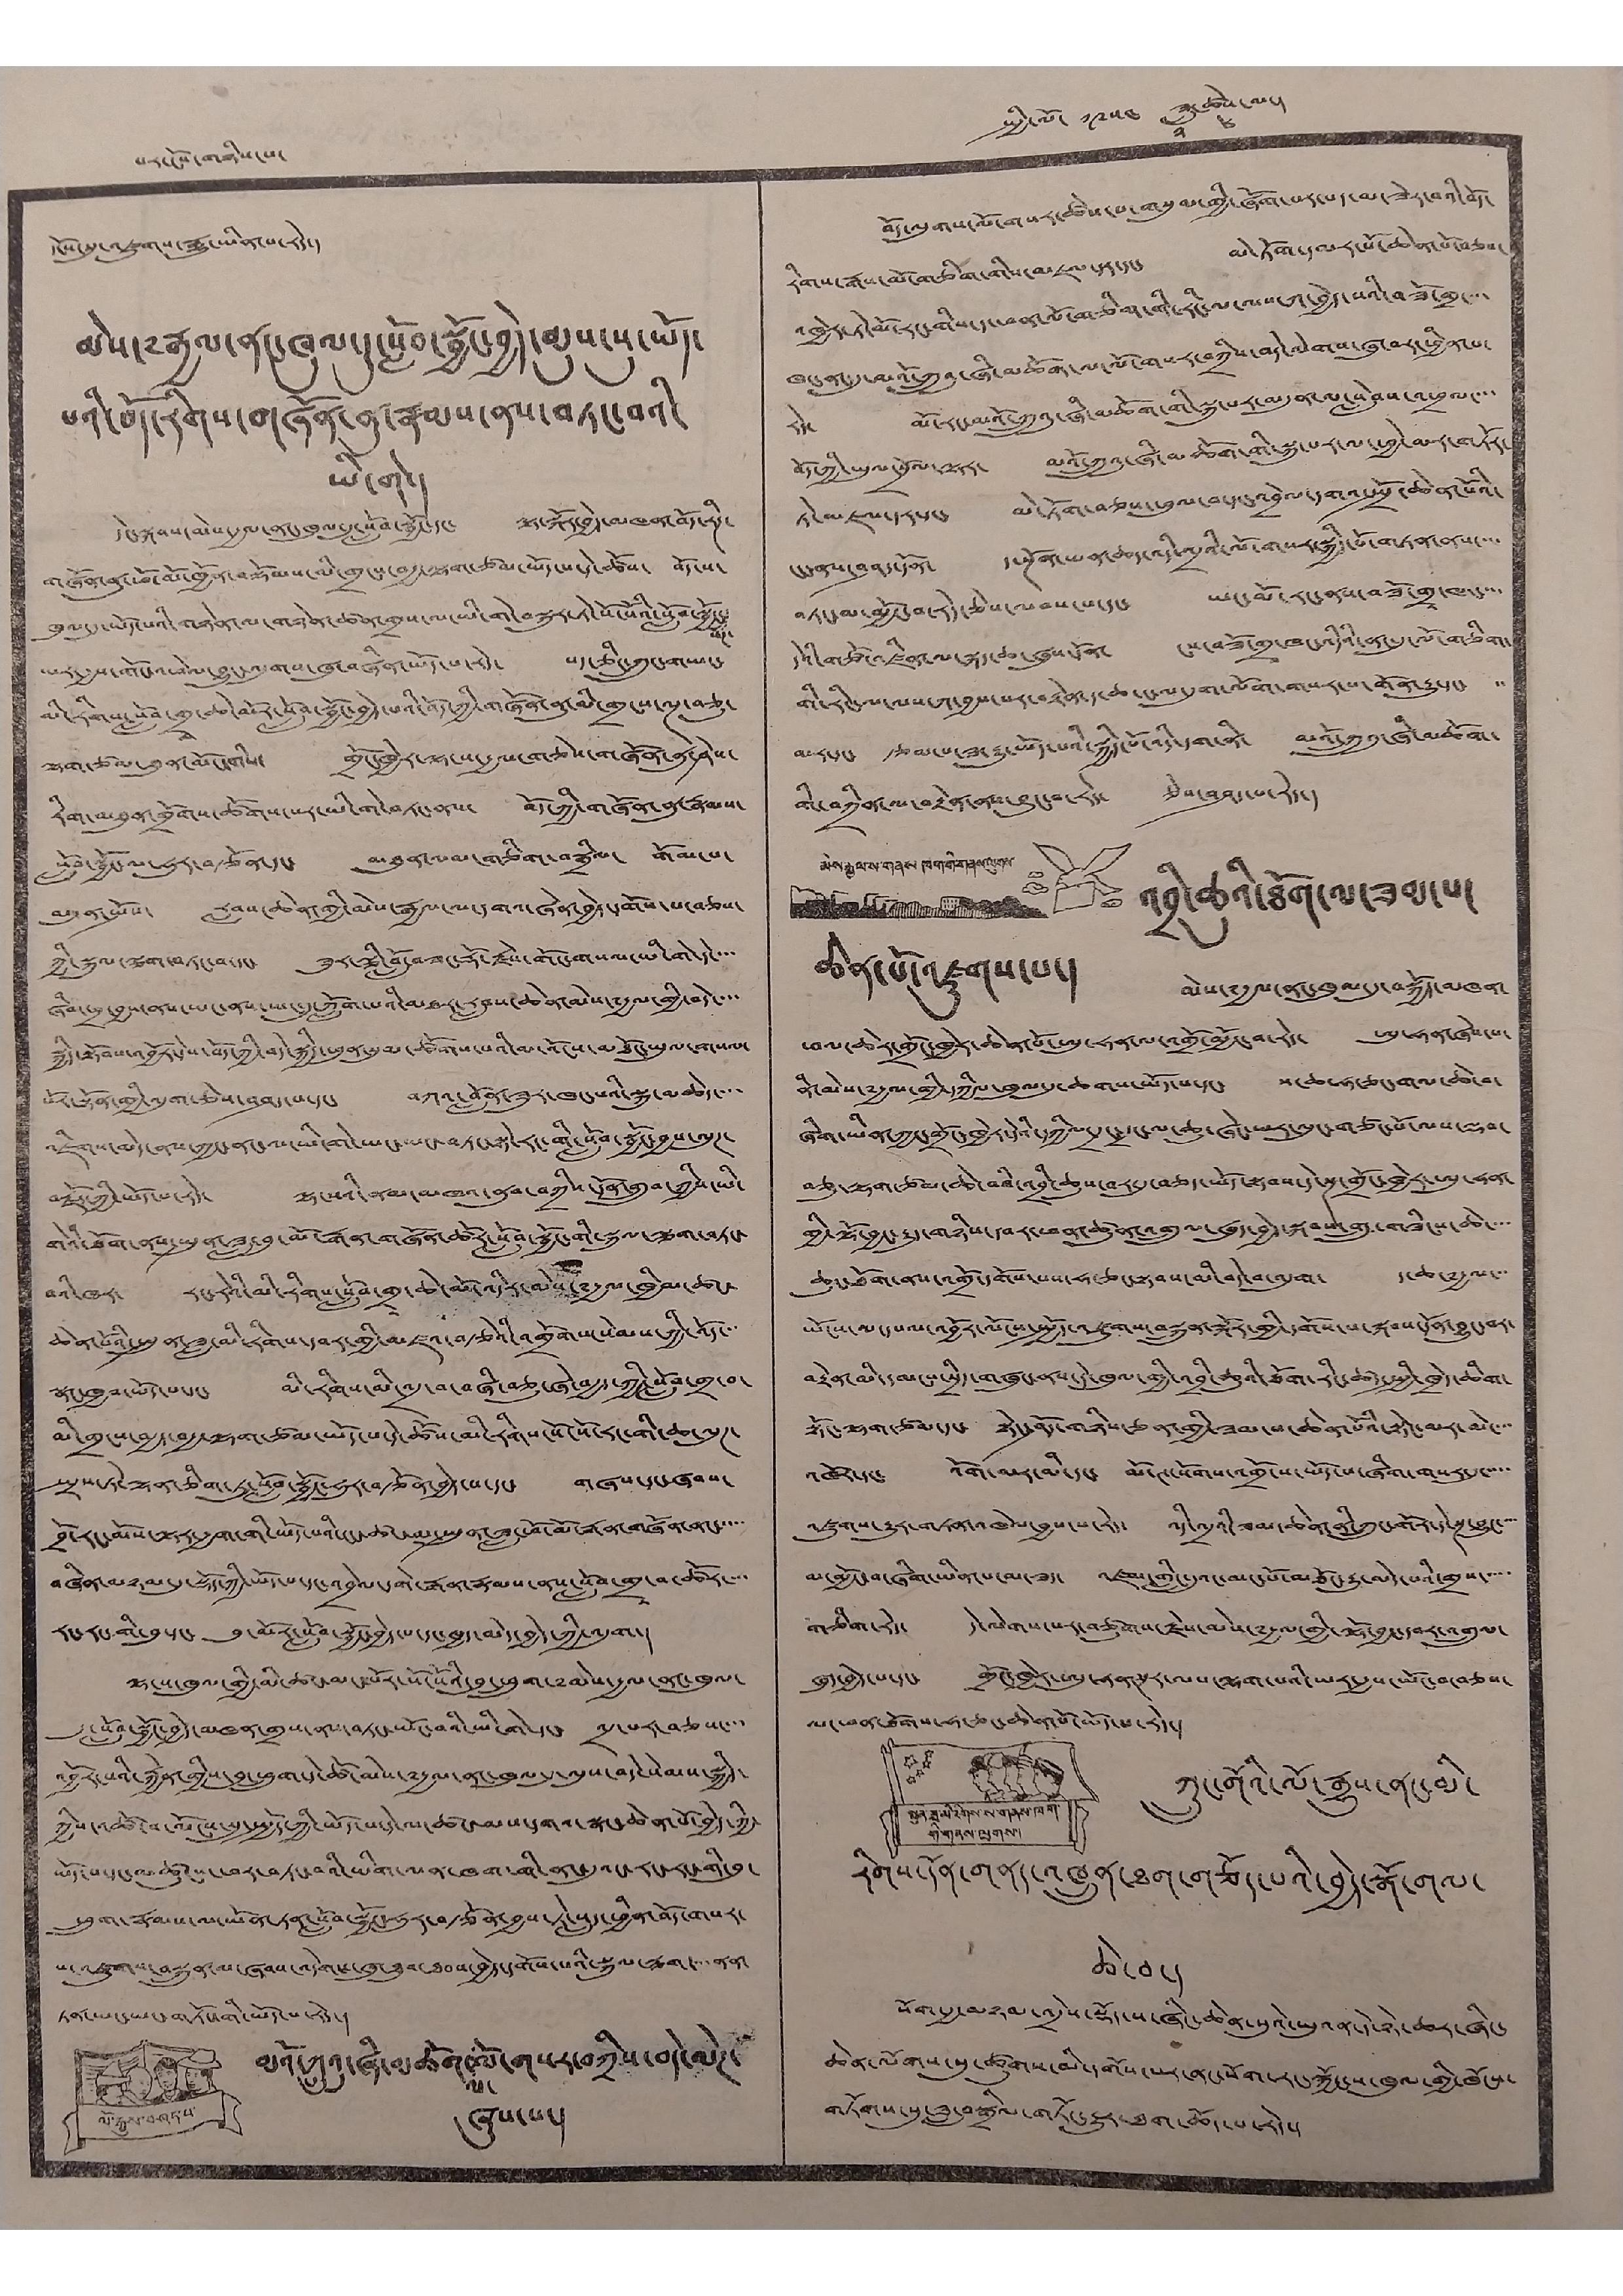པར་ངོས་གཉིས་པ་ སྤྱི་ལོ་ ༡༩༥༤ ཟླ་
༢
ཚེས་
༨
ལ་།
དངོས་སུ་འཛུགས་རྒྱུ་ཡིན་པ་རེད་།
མེས་༸རྒྱལ་ནང་ཁུལ་དུ་སློབ་སྦྱོང་བྱེད་མུས་སུ་ཡོད་
པའི་བོད་རིགས་གཞོན་ནུ་རྣམས་ནས་བཏང་བའི་
ཡི་གེ་།
དེང་སྐབས་མེས་རྒྱལ་ནང་ཁུལ་དུ་སློབ་སྦྱོང་དང་ ལྟ་སྐོར་བྱེད་མཁན་བོད་རིཊ་
གཞོན་ནུ་ཕོ་མོ་ཁྱོན་བསྡོམས་མི་གྲངས་བརྒྱ་ལྷག་ཙམ་ཡོད་པ་དེ་ཚོས་ བོད་ས་
ཁུལ་དུ་ཡོད་པའི་གཉེན་ལ་གཉེན་ཚན་གྲས་ལ་ཡི་གེ་བསྐུར་ཏེ་སོ་སོའི་སློབ་སྦྱོང་
སོཊ་
ཡར་རྒྱས་གོང་འཕེལ་བྱུང་ལུགས་ཞུ་བཞིན་ཡོད་པ་རེད་ པད་ཅིང་ཀྲུང་གཡང་
མི་རིགས་སློབ་གྲྭ་ཆེ་མོར་སློབ་སྦྱོང་བྱེད་པའི་འོད་ཀྱི་གཞོན་ནུ་མི་གྲངས་ལྔ་བཅུ་
ལྷག་ཙམ་ཐུན་མོང་གིས་ གྲོང་ཁྱེར་ལྷ་ས་རྒྱལ་གཅེས་གཞོན་ནུ་ཤེས་
རིག་མཐུན་གྲོགས་ཚོགས་པར་ཡི་གེ་བཏང་ནས་ བོད་ཀྱི་གཞོན་ནུ་རྣམས་
སློབ་སྦྱོང་ལ་ཧུར་བརྩོན་དང་ མཐུན་ལམ་གཅིག་བསྒྲིལ་ གོམ་པ་
མདུན་སྤོས་ རླབས་ཆེན་གྱི་མེས་རྒྱལ་ལ་དགའ་ཞེན་བྱེད་དགོས་པ་བཅས་
ཀྱི་སྐུལ་ལྕག་བཏང་བ་དང་ ཟུར་ལྕི་བློ་བཟང་རྡོ་རྗེས་གོང་གསལ་ཡི་གེ་དེ་་་་
ཞིབ་ཕྲ་བྱས་ནས་ཡང་ནས་ཡང་དུ་ཀློག་པའི་མཐར་རླབས་ཆེན་མེས་༸རྒྱལ་གྱི་བདེ་་་་
སྐྱིད་སྟོབས་འབྱོར་དེས་བོད་ཀྱི་བདེ་སྐྱིད་ཕུན་སུམ་ཚོགས་པའི་མ་འོངས་མཐོང་ཡུལ་གསལ་
པོར་སྟོན་གྱི་འདུག་ཅེས་བཤད་པ་དང་ བཀའ་བློན་ཟུར་ཁང་པའི་སྐུ་མཆེད་་་་
འཇིགས་མེད་ནས་ཀྱང་ནང་ལ་ཡི་གེ་ཡང་ཡང་བཏང་སྟེ་རང་གི་སློབ་སྦྱོང་བྱས་ལུཊ་
བརྗོད་ཀྱི་ཡོད་པ་རེད་ ལྷ་སའི་ནམ་མཁའ་ནུབ་བཀྲིས་དོན་གྲུབ་ཀྱིས་ཡི་
གེའི་ཐོག་ནས་སྤུན་ཟླ་བུ་མོ་རྒན་གཞོན་ཚོར་སློབ་སྦྱོང་གི་སྐུལ་ལྕག་བཏང་
བའི་ཁར་ རང་རེའི་མི་རིགས་སློབ་གྲྭ་ཆེ་མོ་འདིར་མེས་༸རྒྱལ་ཁྱིམ་ཚང་
ཆེན་པོའི་སྤུན་ཟླ་མི་རིགས་དབར་གྱི་མཛའ་བརྩེའི་འགྲོགས་སེམས་ཀྱི་འོད་་་
སྣང་ཁྱབ་ཡོད་པ་དང་ མི་རིགས་མི་འདྲ་བ་བཞི་བཅུ་ཞེ་བརྒྱད་ཀྱི་སློབ་གྲ་བ་
མི་གྲངས་བརྒྱད་བརྒྱ་ལྷག་ཙམ་ཡོད་པ་དེ་ཚོས་མི་རིགས་སོ་སོ་རང་གི་ཆ་ལུཊ་
སྤྲས་ཏེ་ལྷན་ཅིག་ཏུ་སློབ་སྦྱོང་ཧུར་བརྩོན་བྱེད་པ་དང་ གཞས་དང་ཞབས་
བྲོ་རང་མོས་ལྟར་རྒྱག་གི་ཡོད་པའི་ངང་ཚང་མ་སྤུན་ཟླ་ཕོ་མོ་རྒན་གཞོན་ནང་་་་་
བཞིན་མཉམ་དུ་སྡོད་ཀྱི་ཡོད་པ་དང་འབྲེལ་དགེ་རྒན་རྣམས་ནས་སློབ་གྲྭ་བ་ཚོར་་་་
རང་རང་གི་བུ་དང་ བུ་མོར་སློབ་སྦྱོང་བྱེད་པ་དང་ཁྱད་མེད་བྱེད་ཀྱི་འདུག་།
ལྷ་ས་ཁུལ་གྱི་མི་ཚང་མང་པོར་སོ་སོའི་བུ་ཕྲུག་༸མེས་རྒྱལ་ནང་ཁུལ་
དུ་སློབ་སྦྱོང་བྱེད་མཁན་གྲས་ནས་བཏང་ཡོང་བའི་ཡི་གེ་དང་ འདྲ་པར་བཅས་་་་
འབྱོར་པའི་རྐྱེན་གྱིས་བུ་ཕྲུག་དེ་ཚོ་མེས་༸རྒྱལ་ནང་ཁུལ་དུ་ལུས་བདེ་སེམས་སྐྱིད་
ཀྱིས་འཚོ་བ་ལོངས་སུ་སྤྱོད་ཀྱི་ཡོད་པ་དེ་ལ་ཚང་མས་དགའ་སྣང་ཆེན་པོ་བྱེད་ཀྱི་
ཡོད་པ་དང་མཚུངས་ཕར་བཏང་བའི་ཡིག་ལན་ཁག་གི་ནང་དུའང་རང་རང་གི་བུ་
ཕྲུག་རྣམས་ལ་ཡོན་ཏན་སློབ་སྦྱོང་ཧུར་བརྩོན་བྱས་ཏེ་སླད་ཕྱིན་བོད་གསར་
པ་འཛུགས་བསྐྲུན་མ་ཞབས་འདེགས་ཞུ་ཐུབ་ཐབས་བྱེད་དགོས་པའི་སྐུལ་ལྕག་་་་ནན་
ཏན་ཡང་ཡང་གཏོང་གི་ཡོད་པ་རེད་།
ལོ་རྒྱུས་བཤད་པ་
མའོ་ཀྲུའུ་ཞི་མཆོག་
ལ་
ལོ་གསར་བཀྲིས་བདེ་ལེཊ་
ཞུས་པ་།
བོད་ལུགས་ལོ་གསར་ཚེས་པ་གསུམ་གྱི་ཞོག་པར་པད་མ་ཟེར་བའི་བོད་
རིགས་རྒས་མོ་གཅིག་གིས་མཇལ་དར་དང་ མེ་ཏོག་དམར་པོ་ཆེན་པོ་བཅས་
འཁྱེར་ཏེ་མོ་རང་གིས་ད་ཕན་ལོ་གཅིག་གི་རིང་ལ་ལས་ཀ་བྱེད་པའི་བཟོ་གྲ་་་་
ཁང་ནང་དུ་མའོ་ཀྲུའུ་ཞི་མཆོག་ལ་ལོ་གསར་བཀྲིས་བདེ་ལེགས་ཞུ་བར་ཕྱིན་པ་
རེད་ མོ་རང་མའོ་ཀྲུའུ་ཞི་མཆོག་གི་སྐུ་པར་མདུན་ལ་སླེབས་འཕྲལ་་་་
བོད་ཀྱི་ཡུལ་སྲོལ་ལྟར་ མའོ་ཀྲུའུ་ཞི་མཆོག་གི་སྐུ་པར་ལ་ཕྱེ་མར་གཏོར་
ཏེ་མཇལ་དར་དང་ མེ་ཏོག་བཅས་ཕུལ་བ་དང་འབྲེལ་དགའ་སྤྲོ་ཆེན་པོའི་
ངང་ནས་བཤད་དོན་ ད་སྔོན་ཡན་ཆད་འདི་འདྲའི་ལོ་གསར་སྐྱིད་པོ་གཏན་ནས་་་་
བཏང་མ་མྱོང་བ་རེད་ཅེས་ལབས་པ་དང་ ཡང་མོ་རང་ནས་བཟོ་གྲྭ་ཁང་་་་
དེའི་གཙོ་འཛིན་ལ་སྐད་ཆ་ཞུས་དོན་ ངས་བཟོ་གྲྭ་ཁང་འདིའི་ནང་དུ་ལོ་གཅིག་
གི་རིང་ལ་ལས་ཀ་བྱས་པར་བརྟེན་ད་ཆ་ང་ལ་དུག་ལོག་གསར་པ་གོན་རྒྱུ་དང་ ་་
མར་དང་ རྩམ་པ་ཟ་རྒྱུ་ཡོད་པའི་སྐྱིད་པོ་འདི་དག་ནི་ མའོ་ཀྲུའུ་ཞི་མཆོག་
གི་བཀྲིན་ལ་བརྟེན་ནས་བྱུང་བ་རེད་ ཅེས་བཤད་པ་རེད་།
མེས་རྒྱལ་ས་གནས་ཁག་གི་གནས་ལུགས་
འབྲི་ཆུའི་ཐོག་ལ་ཟམ་པ་
ཆེན་པོ་འཛུགས་པ་།
མེས་༸རྒྱལ་ནང་ཁུལ་དུ་བསྐྱོད་མཁན་
ཕལ་ཆེར་གྲོང་ཁྱེར་ཆེན་པོ་ཨུ་ཧན་ལ་འགྲོ་མྱོང་བ་རེད་ ཨུ་ཧན་ཞེས་པ་
ནི་མེས་༸རྒྱལ་གྱི་དཀྱིལ་ཁུལ་དུ་ཆགས་ཡོད་པ་དང་ ས་ཆ་ཧ་ཅང་གལ་ཆེ་བ་
ཞིག་ཡིན་ཀྱང་གྲོང་ཁྱེར་དེའི་དཀྱིལ་དྲང་དྲང་ལ་ཆུ་ཞེང་ཡར་ལུང་གཙང་པོ་ལས་ལྡབ་
བཅུ་ལྷག་ཙམ་ཆེ་བའི་འབྲི་ཆུས་བར་དུ་བཅད་ཡོད་སྟབས་དེ་སྔ་གྲོང་ཁྱེར་ཨུ་ཧན་
གྱི་ལྷོ་བྱང་རྒྱུད་གཉིས་དབར་ཕན་ཚུན་འགྲུལ་ཞུད་བྱེད་སྐབས་གྲུ་གཟིངས་ཆེ་་་་
ཆུང་ཐོག་ནས་འགྲོ་དགོས་པས་ཧ་ཅང་སྟབས་མི་བདེ་བ་འདུག་ ད་ཆ་༸རྒྱལ་་་
ཡོངས་ལ་དཔལ་འབྱོར་ལོངས་སྤྱོད་འཛུགས་བསྐྲུན་སྐོར་གྱི་དགོས་པ་སྐབས་དོན་བྱུང་བར་
བརྟེན་མི་དམངས་སྲིད་གཞུང་ནས་དེ་ཁུལ་གྱི་འབྲི་ཆུའི་ཐོག་རིང་ཚད་སྤྱི་ཁྲེད་ཆིག་
སྟོང་ལྷག་ཙམ་དང་ སྟེང་ཤོད་གཉིས་ཅན་གྱི་ཟམ་པ་ཆེན་པོའི་སྟེང་མར་མེ་་་་
འཁོར་དང་ འོག་མར་མི་དང་ མོ་ཊ་སོགས་འགྲོ་ས་ཡོད་པ་ཞིག་གསར་དུ་་་་་
འཛུགས་རྒྱུར་གཏན་འཁེལ་བྱས་པ་རེད་ འདི་འདྲའི་ཟམ་ཆེན་ནི་ཀྲུང་གོར་དེ་སྔ་བྱུང་་་་
མ་མྱོང་བ་ཞིག་ཡིན་པ་མ་ཟད་ འཛམ་གླིང་དུའང་མང་པོ་མཐོང་རྒྱུ་མེད་པའི་གྲས་་་་་
གཅིག་རེད་ དེ་ལེགས་པར་བཙུགས་རྗེས་མེས་༸རྒྱལ་གྱི་ལྷོ་བྱང་དབར་འགྲུལ་
ཞུད་བྱེད་པ་དང་ གྲོང་ཁྱེར་ཨུ་ཧན་སྔར་ལས་ལྷག་པའི་ཡར་རྒྱས་ཡོང་བ་བཅས་
ལ་ཕན་ཐོགས་ཧ་ཅང་ཆེན་པོ་ཡོད་པ་རེད་།
སྤུན་ཟླ་མི་རིགས་ས་གནས་ཁག་
གི་གནས་ལུགས་།
ཀྲུང་གོའི་ལོ་རྒྱུས་ནང་མི་
རིགས་དོན་གནད་འཁྲུན་ཐག་གཅོད་པའི་བྱེད་སྒོ་གལ་
ཆེ་བ་།
སོག་རྒྱ་མཉམ་འདྲེས་སྡོད་ས་ཞིང་ཆེན་སུའེ་ཡུའན་དེ་ཉེ་ཆར་ཞིང་
ཆེན་ལོགས་སུ་ཚུགས་མི་དགོས་པར་ནང་སོག་རང་སྐྱོང་ས་ཁུལ་གྱི་ཁོངས་
གཏོགས་སུ་ཟླ་བསྒྲིལ་གཏོང་རྒྱུར་ཐག་ཆོད་པ་རེད་།
